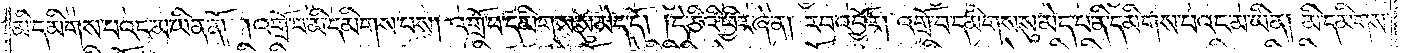མི་དམིགས་པའང་མ་ཡིན་ནོ། །འགྲོ་བ་མི་དམིགས་པས། འགྲོ་བ་དམིགས་སུ་མེད་དོ། །དེ་ཅིའི་ཕྱིར་ཞེ་ན། རབ་འབྱོར། འགྲོ་བ་དམིགས་སུ་མེད་པ་ནི་དམིགས་པའང་མ་ཡིན། མི་དམིགས་
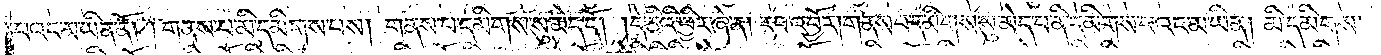པའང་མ་ཡིན་ནོ། །གནས་པ་མི་དམིགས་པས། གནས་པ་དམིགས་སུ་མེད་དོ༎ དེ་ཅིའི་ཕྱིར་ཞེ་ན། རབ་འབྱོར། གནས་པ་དམིགས་སུ་མེད་པ་ནི་དམིགས་པའང་མ་ཡིན། མི་དམིགས་
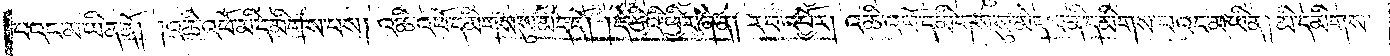པའང་མ་ཡིན་ནོ། །འཆི་འཕོ་མི་དམིགས་པས། འཆི་འཕོ་དམིགས་སུ་མེད་དོ། །དེ་ཅིའི་ཕྱིར་ཞེ་ན། རབ་འབྱོར། འཆི་འཕོ་དམིགས་སུ་མེད་པ་ནི་དམིགས་པའང་མ་ཡིན། མི་དམིགས་
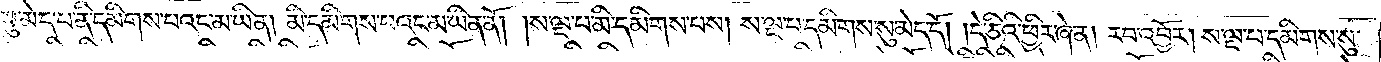སུ་མེད་པ་ནི་དམིགས་པའང་མ་ཡིན། མི་དམིགས་པའང་མ་ཡིན་ནོ། །ས་ལྔ་པ་མི་དམིགས་པས། ས་ལྔ་པ་དམིགས་སུ་མེད་དོ། །དེ་ཅིའི་ཕྱིར་ཞེ་ན། རབ་འབྱོར། ས་ལྔ་པ་དམིགས་སུ་
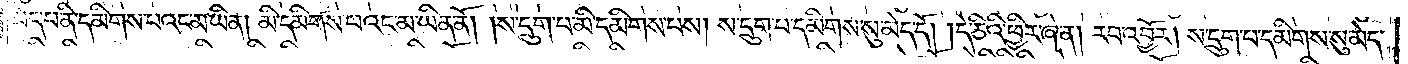མེད་པ་ནི་དམིགས་པའང་མ་ཡིན། མི་དམིགས་པའང་མ་ཡིན་ནོ། །ས་དྲུག་པ་མི་དམིགས་པས། ས་དྲུག་པ་དམིགས་སུ་མེད་དོ། །དེ་ཅིའི་ཕྱིར་ཞེ་ན། རབ་འབྱོར། ས་དྲུག་པ་དམིགས་སུ་མེད་
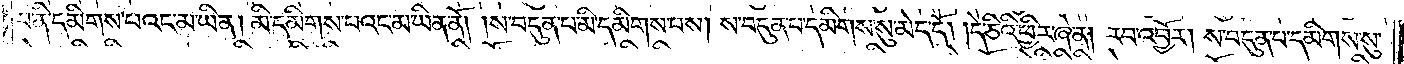པ་ནི་དམིགས་པའང་མ་ཡིན། མི་དམིགས་པའང་མ་ཡིན་ནོ། །ས་བདུན་པ་མི་དམིགས་པས། ས་བདུན་པ་དམིགས་སུ་མེད་དོ། །དེ་ཅིའི་ཕྱིར་ཞེ་ན། རབ་འབྱོར། ས་བདུན་པ་དམིགས་སུ་
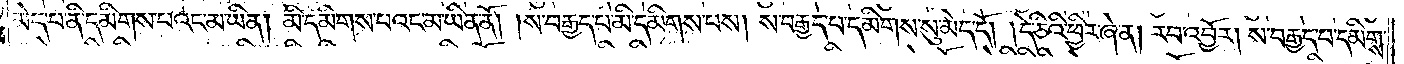མེད་པ་ནི་དམིགས་པའང་མ་ཡིན། མི་དམིགས་པའང་མ་ཡིན་ནོ། །ས་བརྒྱད་པ་མི་དམིགས་པས། ས་བརྒྱད་པ་དམིགས་སུ་མེད་དོ། །དེ་ཅིའི་ཕྱིར་ཞེ་ན། རབ་འབྱོར། ས་བརྒྱད་པ་དམིགས་
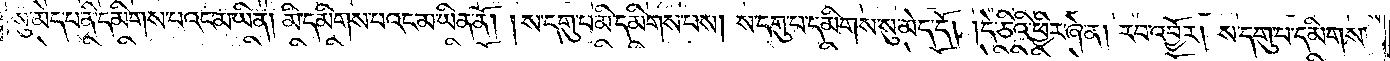སུ་མེད་པ་ནི་དམིགས་པའང་མ་ཡིན། མི་དམིགས་པའང་མ་ཡིན་ནོ། །ས་དགུ་པ་མི་དམིགས་པས། ས་དགུ་པ་དམིགས་སུ་མེད་དོ། །དེ་ཅིའི་ཕྱིར་ཞེ་ན། རབ་འབྱོར། ས་དགུ་པ་དམིགས་
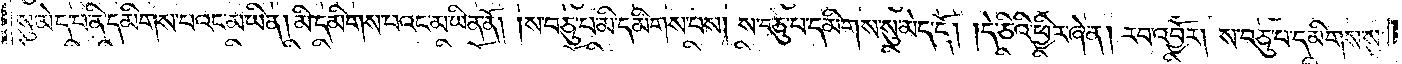སུ་མེད་པ་ནི་དམིགས་པའང་མ་ཡིན། མི་དམིགས་པའང་མ་ཡིན་ནོ། །ས་བཅུ་པ་མི་དམིགས་པས། ས་བཅུ་པ་དམིགས་སུ་མེད་དོ། །དེ་ཅིའི་ཕྱིར་ཞེ་ན། རབ་འབྱོར། ས་བཅུ་པ་དམིགས་སུ་
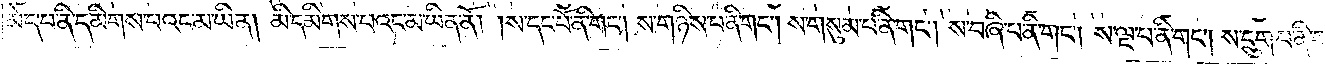མེད་པ་ནི་དམིགས་པའང་མ་ཡིན། མི་དམིགས་པའང་མ་ཡིན་ནོ། །ས་དང་པོ་ནི་གང༌། ས་གཉིས་པ་ནི་གང༌། ས་གསུམ་པ་ནི་གང༌། ས་བཞི་པ་ནི་གང༌། ས་ལྔ་པ་ནི་གང༌། ས་དྲུག་པ་ནི་གང༌།
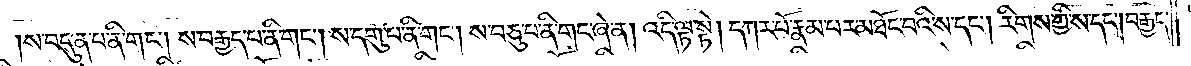།ས་བདུན་པ་ནི་གང༌། ས་བརྒྱད་པ་ནི་གང༌། ས་དགུ་པ་ནི་གང༌། ས་བཅུ་པ་ནི་གང་ཞེ་ན། འདི་ལྟ་སྟེ། དཀར་པོ་རྣམ་པར་མཐོང་བའི་ས་དང༌། རིགས་ཀྱི་ས་དང༌། བརྒྱད་
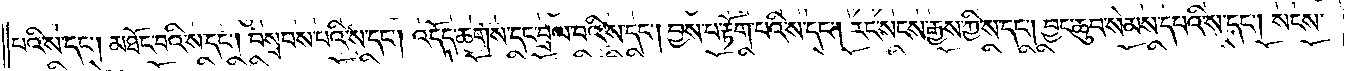པའི་ས་དང༌། མཐོང་བའི་ས་དང༌། བསྲབས་པའི་ས་དང༌། འདོད་ཆགས་དང་བྲལ་བའི་ས་དང༌། བྱས་པ་རྟོག་པའི་ས་དང༌། རང་སངས་རྒྱས་ཀྱི་ས་དང༌། བྱང་ཆུབ་སེམས་དཔའི་ས་དང༌། སངས་
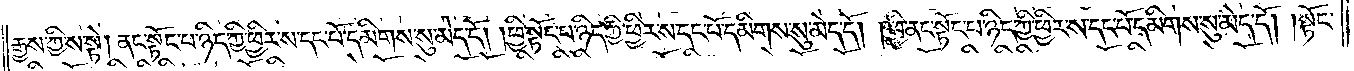རྒྱས་ཀྱི་ས་སྟེ། ནང་སྟོང་པ་ཉིད་ཀྱི་ཕྱིར་ས་དང་པོ་དམིགས་སུ་མེད་དོ། །ཕྱི་སྟོང་པ་ཉིད་ཀྱི་ཕྱིར་ས་དང་པོ་དམིགས་སུ་མེད་དོ། །ཕྱི་ནང་སྟོང་པ་ཉིད་ཀྱི་ཕྱིར་ས་དང་པོ་དམིགས་སུ་མེད་དོ། །སྟོང་
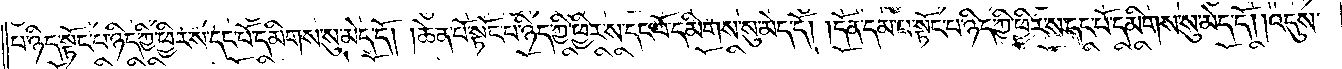པ་ཉིད་སྟོང་པ་ཉིད་ཀྱི་ཕྱིར་ས་དང་པོ་དམིགས་སུ་མེད་དོ། །ཆེན་པོ་སྟོང་པ་ཉིད་ཀྱི་ཕྱིར་ས་དང་པོ་དམིགས་སུ་མེད་དོ། །དོན་དམ་པ་སྟོང་པ་ཉིད་ཀྱི་ཕྱིར་ས་དང་པོ་དམིགས་སུ་མེད་དོ། །འདུས་
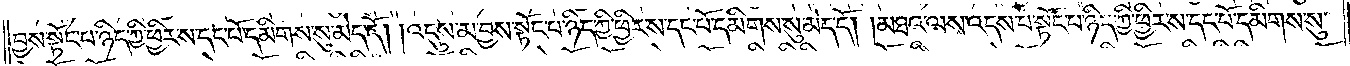བྱས་སྟོང་པ་ཉིད་ཀྱི་ཕྱིར་ས་དང་པོ་དམིགས་སུ་མེད་དོ། །འདུས་མ་བྱས་སྟོང་པ་ཉིད་ཀྱི་ཕྱིར་ས་དང་པོ་དམིགས་སུ་མེད་དོ། །མཐའ་ལས་འདས་པ་སྟོང་པ་ཉིད་ཀྱི་ཕྱིར་ས་དང་པོ་དམིགས་སུ་
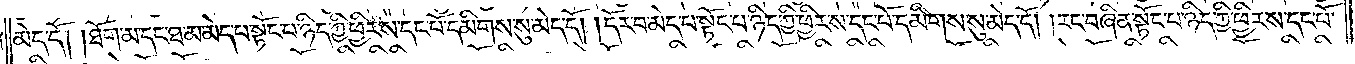མེད་དོ། །ཐོག་མ་དང་ཐ་མ་མེད་པ་སྟོང་པ་ཉིད་ཀྱི་ཕྱིར་ས་དང་པོ་དམིགས་སུ་མེད་དོ། །དོར་བ་མེད་པ་སྟོང་པ་ཉིད་ཀྱི་ཕྱིར་ས་དང་པོ་དམིགས་སུ་མེད་དོ། །རང་བཞིན་སྟོང་པ་ཉིད་ཀྱི་ཕྱིར་ས་དང་པོ་
